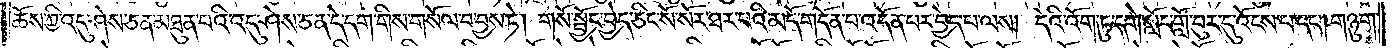ཆོས་ཀྱི་འདུ་ཤེས་ཅན་མཐུན་པའི་འདུ་ཤེས་ཅན་དེ་དག་གིས་གསོལ་བ་བྱས་ཏེ། གསོ་སྦྱོང་བྱེད་ཅིང་སོ་སོར་ཐར་པའི་མདོ་གདོན་པ་འདོན་པར་བྱེད་པ་ལས། དེའི་འོག་ཏུ་དགེ་སློང་གློ་བུར་དུ་འོངས་པ་དང༌། གཉུག་
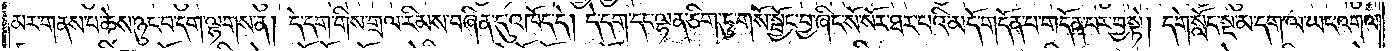མར་གནས་པ་ཆེས་ཉུང་བ་དག་ལྷགས་ན། དེ་དག་གིས་གྲལ་རིམས་བཞིན་དུ་འཁོད་དེ། དེ་དག་དང་ལྷན་ཅིག་ཏུ་གསོ་སྦྱོང་བྱ་ཞིང་སོ་སོར་ཐར་པའི་མདོ་གདོན་པ་གདོན་པར་བྱ་སྟེ། དགེ་སློང་སྔ་མ་དག་ལ་ཡང་འགལ་
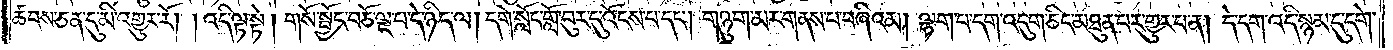ཚབས་ཅན་དུ་མི་འགྱུར་རོ། །འདི་ལྟ་སྟེ། གསོ་སྦྱོང་བཅོ་ལྔ་པ་དེ་ཉིད་ལ། དགེ་སློང་གློ་བུར་དུ་འོངས་པ་དང༌། གཉུག་མར་གནས་པ་བཞིའམ། ལྷག་པ་དག་འདུག་ཅིང་མཐུན་པར་གྱུར་པ་ན། དེ་དག་འདི་སྙམ་དུ་དགེ་
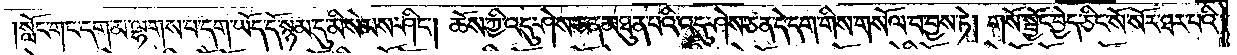སློང་གང་དག་མ་ལྷགས་པ་དག་ཡོད་དོ་སྙམ་དུ་མི་སེམས་ཤིང༌། ཆོས་ཀྱི་འདུ་ཤེས་ཅན་མཐུན་པའི་འདུ་ཤེས་ཅན་དེ་དག་གིས་གསོལ་བ་བྱས་ཏེ། གསོ་སྦྱོང་བྱེད་ཅིང་སོ་སོར་ཐར་པའི་
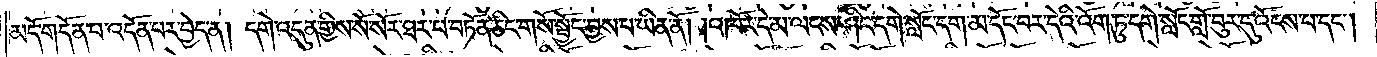མདོ་གདོན་པ་འདོན་པར་བྱེད་ན། དགེ་འདུན་གྱིས་སོ་སོར་ཐར་པ་བཏོན་ཅིང་གསོ་སྦྱོང་བྱས་པ་ཡིན་ནོ། །འཁོར་དེ་མ་ལངས་ཤིང་དགེ་སློང་དག་མ་དོང་བར་དེའི་འོག་ཏུ་དགེ་སློང་གློ་བུར་དུ་འོངས་པ་དང༌།
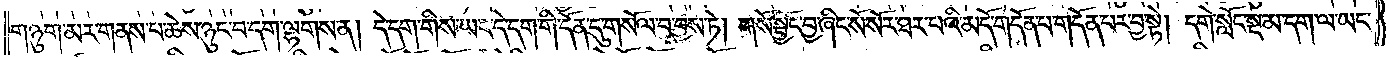གཉུག་མར་གནས་པ་ཆེས་ཉུང་བ་དག་ལྷགས་ན། དེ་དག་གིས་ཡང་དེ་དག་གི་དོན་དུ་གསོལ་བ་བྱས་ཏེ། གསོ་སྦྱོང་བྱ་ཞིང་སོ་སོར་ཐར་པའི་མདོ་གདོན་པ་གདོན་པར་བྱ་སྟེ། དགེ་སློང་སྔ་མ་དག་ལ་ཡང་
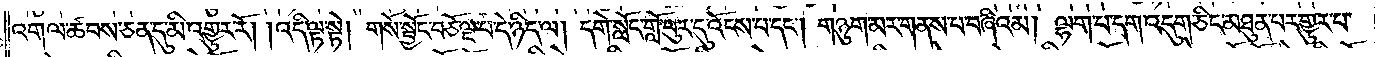འགལ་ཚབས་ཅན་དུ་མི་འགྱུར་རོ། །འདི་ལྟ་སྟེ། གསོ་སྦྱོང་བཅོ་ལྔ་པ་དེ་ཉིད་ལ། དགེ་སློང་གློ་བུར་དུ་འོངས་པ་དང༌། གཉུག་མར་གནས་པ་བཞིའམ། ལྷག་པ་དག་འདུག་ཅིང་མཐུན་པར་གྱུར་པ་
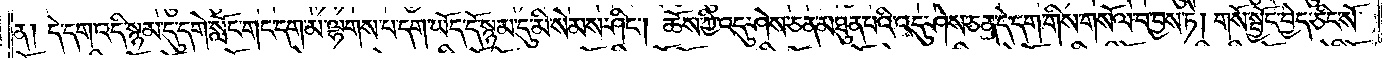ན། དེ་དག་འདི་སྙམ་དུ་དགེ་སློང་གང་དག་མ་ལྷགས་པ་དག་ཡོད་དོ་སྙམ་དུ་མི་སེམས་ཤིང༌། ཆོས་ཀྱི་འདུ་ཤེས་ཅན་མཐུན་པའི་འདུ་ཤེས་ཅན་དེ་དག་གིས་གསོལ་བ་བྱས་ཏེ། གསོ་སྦྱོང་བྱེད་ཅིང་སོ་
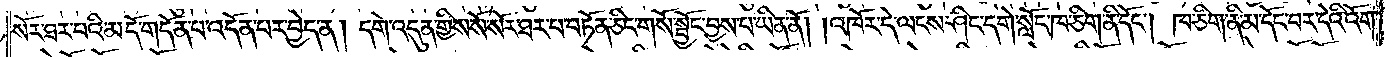སོར་ཐར་པའི་མདོ་གདོན་པ་འདོན་པར་བྱེད་ན། དགེ་འདུན་གྱིས་སོ་སོར་ཐར་པ་བཏོན་ཅིང་གསོ་སྦྱོང་བྱས་པ་ཡིན་ནོ། །འཁོར་དེ་ལངས་ཤིང་དགེ་སློང་ཁ་ཅིག་ནི་དོང༌། ཁ་ཅིག་ནིམ་དོང་བར་དེའི་འོག་
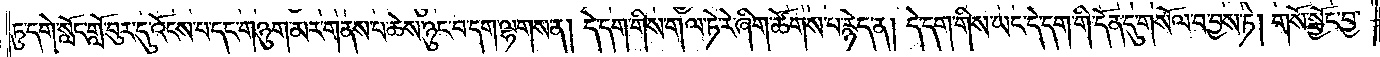ཏུ་དགེ་སློང་གློ་བུར་དུ་འོངས་པ་དང་གཉུག་མར་གནས་པ་ཆེས་ཉུང་བ་དག་ལྷགས་ན། དེ་དག་གིས་གལ་ཏེ་རེ་ཞིག་ཚོགས་པ་རྙེད་ན། དེ་དག་གིས་ཡང་དེ་དག་གི་དོན་དུ་གསོལ་བ་བྱས་ཏེ། གསོ་སྦྱོང་བྱ་
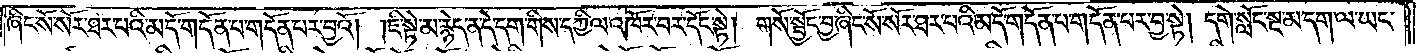ཞིང་སོ་སོར་ཐར་པའི་མདོ་གདོན་པ་གདོན་པར་བྱའོ། །ཇི་སྟེ་མ་རྙེད་ན་དེ་དག་གིས་དཀྱིལ་འཁོར་བར་དོང་སྟེ། གསོ་སྦྱོང་བྱ་ཞིང་སོ་སོར་ཐར་པའི་མདོ་གདོན་པ་གདོན་པར་བྱ་སྟེ། དགེ་སློང་སྔ་མ་དག་ལ་ཡང་
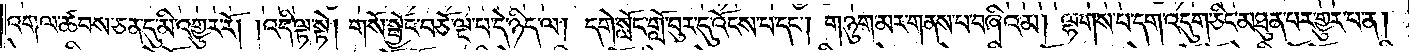འགལ་ཚབས་ཅན་དུ་མི་འགྱུར་རོ། །འདི་ལྟ་སྟེ། གསོ་སྦྱོང་བཅོ་ལྔ་པ་དེ་ཉིད་ལ། དགེ་སློང་གློ་བུར་དུ་འོངས་པ་དང༌། གཉུག་མར་གནས་པ་བཞིའམ། ལྷགས་པ་དག་འདུག་ཅིང་མཐུན་པར་གྱུར་པ་ན།
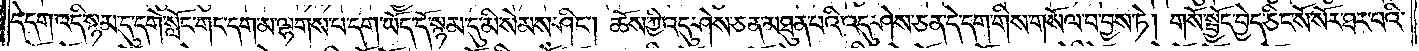དེ་དག་འདི་སྙམ་དུ་དགེ་སློང་གང་དག་མ་ལྷགས་པ་དག་ཡོད་དོ་སྙམ་དུ་མི་སེམས་ཤིང༌། ཆོས་ཀྱི་འདུ་ཤེས་ཅན་མཐུན་པའི་འདུ་ཤེས་ཅན་དེ་དག་གིས་གསོལ་བ་བྱས་ཏེ། གསོ་སྦྱོང་བྱེད་ཅིང་སོ་སོར་ཐར་པའི་
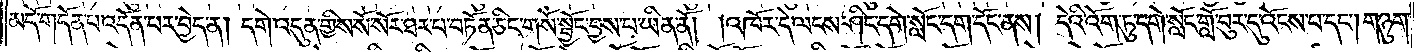མདོ་གདོན་པ་འདོན་པར་བྱེད་ན། དགེ་འདུན་གྱིས་སོ་སོར་ཐར་པ་བཏོན་ཅིང་གསོ་སྦྱོང་བྱས་པ་ཡིན་ནོ། །འཁོར་དེ་ལངས་ཤིང་དགེ་སློང་དག་དོང་ནས། དེའི་འོག་ཏུ་དགེ་སློང་གློ་བུར་དུ་འོངས་པ་དང༌། གཉུག་
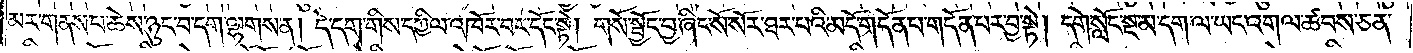མར་གནས་པ་ཆེས་ཉུང་བ་དག་ལྷགས་ན། དེ་དག་གིས་དཀྱིལ་འཁོར་བར་དོང་སྟེ། གསོ་སྦྱོང་བྱ་ཞིང་སོ་སོར་ཐར་བའི་མདོ་གདོན་པ་གདོན་པར་བྱ་སྟེ། དགེ་སློང་སྔ་མ་དག་ལ་ཡང་འགལ་ཚབས་ཅན་
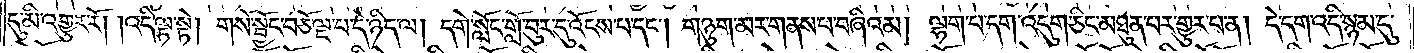དུ་མི་འགྱུར་རོ། །འདི་ལྟ་སྟེ། གསོ་སྦྱོང་བཅོ་ལྔ་པ་དེ་ཉིད་ལ། དགེ་སློང་གློ་བུར་དུ་འོངས་པ་དང༌། གཉུག་མར་གནས་པ་བཞིའམ། ལྷག་པ་དག་འདུག་ཅིང་མཐུན་པར་གྱུར་པ་ན། དེ་དག་འདི་སྙམ་དུ་
